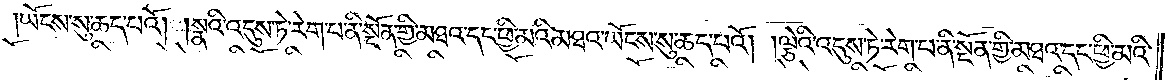ཡོངས་སུ་ཆད་པའོ། །སྣའི་འདུས་ཏེ་རེག་པ་ནི་སྔོན་གྱི་མཐའ་དང་ཕྱི་མའི་མཐའ་ཡོངས་སུ་ཆད་པའོ། །ལྕེའི་འདུས་ཏེ་རེག་པ་ནི་སྔོན་གྱི་མཐའ་དང་ཕྱི་མའི་
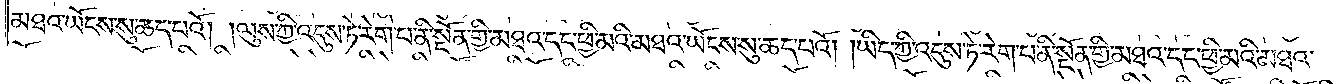མཐའ་ཡོངས་སུ་ཆད་པའོ། །ལུས་ཀྱི་འདུས་ཏེ་རེག་པ་ནི་སྔོན་གྱི་མཐའ་དང་ཕྱི་མའི་མཐའ་ཡོངས་སུ་ཆད་པའོ། །ཡིད་ཀྱི་འདུས་ཏེ་རེག་པ་ནི་སྔོན་གྱི་མཐའ་དང་ཕྱི་མའི་མཐའ་
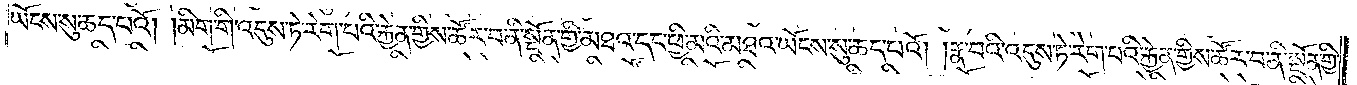ཡོངས་སུ་ཆད་པའོ། །མིག་གི་འདུས་ཏེ་རེག་པའི་རྐྱེན་གྱིས་ཚོར་བ་ནི་སྔོན་གྱི་མཐའ་དང་ཕྱི་མའི་མཐའ་ཡོངས་སུ་ཆད་པའོ། །རྣ་བའི་འདུས་ཏེ་རེག་པའི་རྐྱེན་གྱིས་ཚོར་བ་ནི་སྔོན་གྱི་
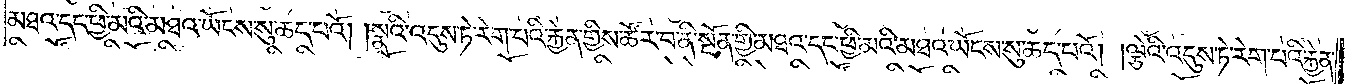མཐའ་དང་ཕྱི་མའི་མཐའ་ཡོངས་སུ་ཆད་པའོ། །སྣའི་འདུས་ཏེ་རེག་པའི་རྐྱེན་གྱིས་ཚོར་བ་ནི་སྔོན་གྱི་མཐའ་དང་ཕྱི་མའི་མཐའ་ཡོངས་སུ་ཆད་པའོ། །ལྕེའི་འདུས་ཏེ་རེག་པའི་རྐྱེན་
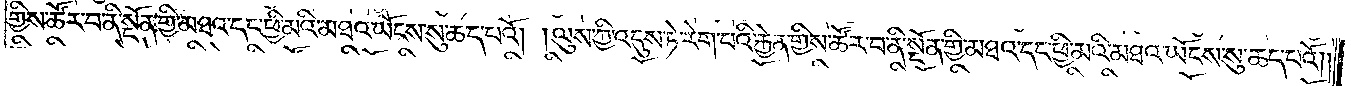གྱིས་ཚོར་བ་ནི་སྔོན་གྱི་མཐའ་དང་ཕྱི་མའི་མཐའ་ཡོངས་སུ་ཆད་པའོ། །ལུས་ཀྱི་འདུས་ཏེ་རེག་པའི་རྐྱེན་གྱིས་ཚོར་བ་ནི་སྔོན་གྱི་མཐའ་དང་ཕྱི་མའི་མཐའ་ཡོངས་སུ་ཆད་པའོ༎
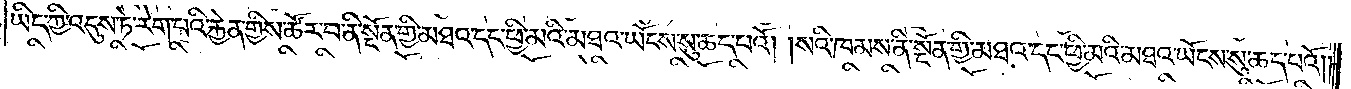ཡིད་ཀྱི་འདུས་ཏེ་རེག་པའི་རྐྱེན་གྱིས་ཚོར་བ་ནི་སྔོན་གྱི་མཐའ་དང་ཕྱི་མའི་མཐའ་ཡོངས་སུ་ཆད་པའོ། །སའི་ཁམས་ནི་སྔོན་གྱི་མཐའ་དང་ཕྱི་མའི་མཐའ་ཡོངས་སུ་ཆད་པའོ༎
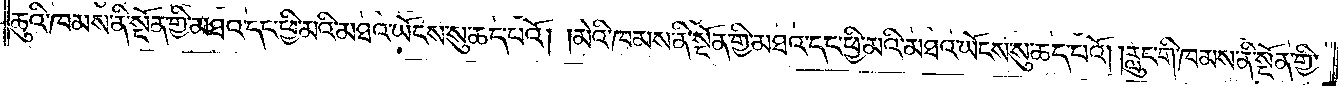ཆུའི་ཁམས་ནི་སྔོན་གྱི་མཐའ་དང་ཕྱི་མའི་མཐའ་ཡོངས་སུ་ཆད་པའོ། །མེའི་ཁམས་ནི་སྔོན་གྱི་མཐའ་དང་ཕྱི་མའི་མཐའ་ཡོངས་སུ་ཆད་པའོ། །རླུང་གི་ཁམས་ནི་སྔོན་གྱི་
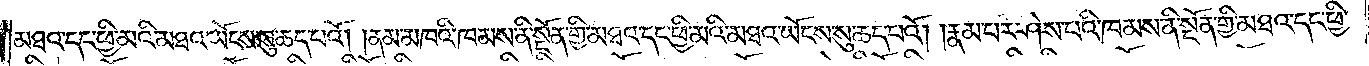མཐའ་དང་ཕྱི་མའི་མཐའ་ཡོངས་སུ་ཆད་པའོ། །ནམ་མཁའི་ཁམས་ནི་སྔོན་གྱི་མཐའ་དང་ཕྱི་མའི་མཐའ་ཡོངས་སུ་ཆད་པའོ། །རྣམ་པར་ཤེས་པའི་ཁམས་ནི་སྔོན་གྱི་མཐའ་དང་ཕྱི་
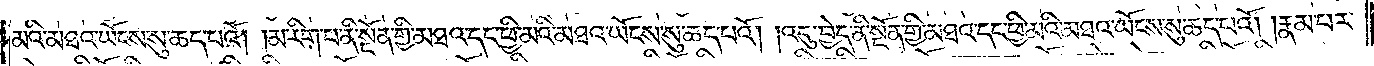མའི་མཐའ་ཡོངས་སུ་ཆད་པའོ། །མ་རིག་པ་ནི་སྔོན་གྱི་མཐའ་དང་ཕྱི་མའི་མཐའ་ཡོངས་སུ་ཆད་པའོ། །འདུ་བྱེད་ནི་སྔོན་གྱི་མཐའ་དང་ཕྱི་མའི་མཐའ་ཡོངས་སུ་ཆད་པའོ། །རྣམ་པར་
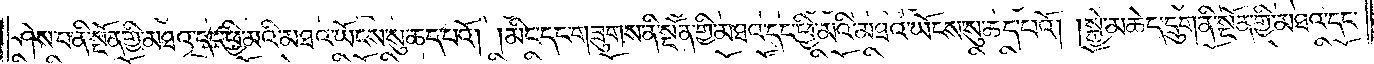ཤེས་པ་ནི་སྔོན་གྱི་མཐའ་དང་ཕྱི་མའི་མཐའ་ཡོངས་སུ་ཆད་པའོ། །མིང་དང་གཟུགས་ནི་སྔོན་གྱི་མཐའ་དང་ཕྱི་མའི་མཐའ་ཡོངས་སུ་ཆད་པའོ། །སྐྱེ་མཆེད་དྲུག་ནི་སྔོན་གྱི་མཐའ་དང་
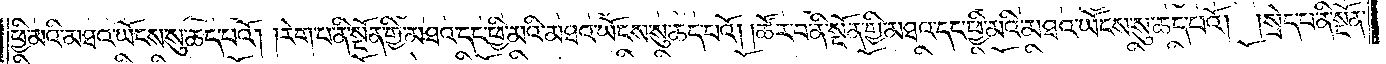ཕྱི་མའི་མཐའ་ཡོངས་སུ་ཆད་པའོ། །རེག་པ་ནི་སྔོན་གྱི་མཐའ་དང་ཕྱི་མའི་མཐའ་ཡོངས་སུ་ཆད་པའོ། །ཚོར་བ་ནི་སྔོན་གྱི་མཐའ་དང་ཕྱི་མའི་མཐའ་ཡོངས་སུ་ཆད་པའོ། །སྲེད་པ་ནི་སྔོན་
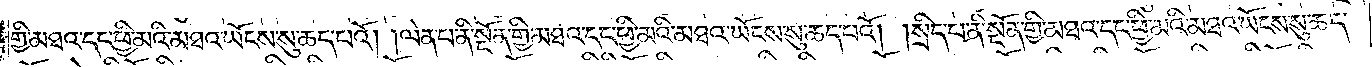གྱི་མཐའ་དང་ཕྱི་མའི་མཐའ་ཡོངས་སུ་ཆད་པའོ། །ལེན་པ་ནི་སྔོན་གྱི་མཐའ་དང་ཕྱི་མའི་མཐའ་ཡོངས་སུ་ཆད་པའོ། །སྲིད་པ་ནི་སྔོན་གྱི་མཐའ་དང་ཕྱི་མའི་མཐའ་ ཡོངས་སུ་ཆད་
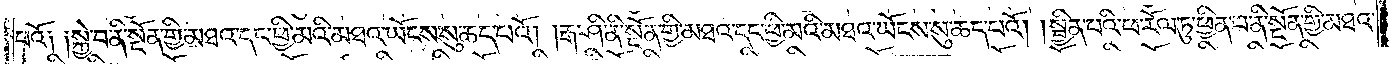པའོ༑ ༑སྐྱེ་བ་ནི་སྔོན་གྱི་མཐའ་དང་ཕྱི་མའི་མཐའ་ཡོངས་སུ་ཆད་པའོ། །རྒ་ཤི་ནི་སྔོན་གྱི་མཐའ་དང་ཕྱི་མའི་མཐའ་ཡོངས་སུ་ཆད་པའོ། །སྦྱིན་པའི་ཕ་རོལ་ཏུ་ཕྱིན་པ་ནི་སྔོན་གྱི་མཐའ་
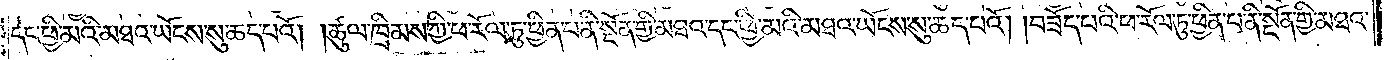དང་ཕྱི་མའི་མཐའ་ཡོངས་སུ་ཆད་པའོ། །ཚུལ་ཁྲིམས་ཀྱི་ཕ་རོལ་ཏུ་ཕྱིན་པ་ནི་སྔོན་གྱི་མཐའ་དང་ཕྱི་མའི་མཐའ་ཡོངས་སུ་ཆད་པའོ། །བཟོད་པའི་ཕ་རོལ་ཏུ་ཕྱིན་པ་ནི་སྔོན་གྱི་མཐའ་
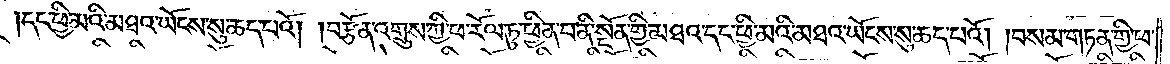དང་ཕྱི་མའི་མཐའ་ཡོངས་སུ་ཆད་པའོ། །བརྩོན་འགྲུས་ཀྱི་ཕ་རོལ་ཏུ་ཕྱིན་པ་ནི་སྔོན་གྱི་མཐའ་དང་ཕྱི་མའི་མཐའ་ཡོངས་སུ་ཆད་པའོ། །བསམ་གཏན་གྱི་ཕ་
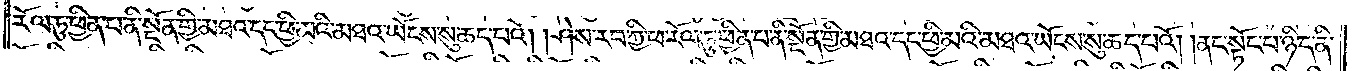རོལ་ཏུ་ཕྱིན་པ་ནི་སྔོན་གྱི་མཐའ་དང་ཕྱི་མའི་མཐའ་ཡོངས་སུ་ཆད་པའོ། །ཤེས་རབ་ཀྱི་ཕ་རོལ་ཏུ་ཕྱིན་པ་ནི་སྔོན་གྱི་མཐའ་དང་ཕྱི་མའི་མཐའ་ཡོངས་སུ་ཆད་པའོ། །ནང་སྟོང་པ་ཉིད་ནི་
